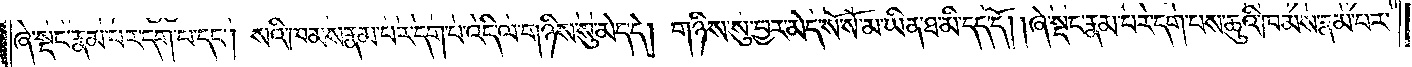ཞེ་སྡང་རྣམ་པར་དག་པ་དང༌། སའི་ཁམས་རྣམ་པར་དག་པ་འདི་ལ་གཉིས་སུ་མེད་དེ། གཉིས་སུ་བྱར་མེད་སོ་སོ་མ་ཡིན་ཐ་མི་དད་དོ། ། ཞེ་སྡང་རྣམ་པར་དག་པས་ཆུའི་ཁམས་རྣམ་པར་
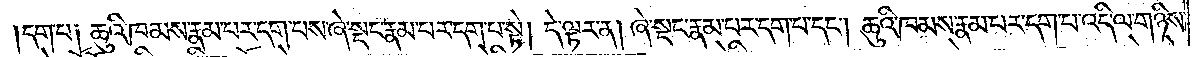དག་པ༑ ཆུའི་ཁམས་རྣམ་པར་དག་པས་ཞེ་སྡང་རྣམ་པར་དག་པ་སྟེ། དེ་ལྟར་ན། ཞེ་སྡང་རྣམ་པར་དག་པ་དང༌། ཆུའི་ཁམས་རྣམ་པར་དག་པ་འདི་ལ་གཉིས་
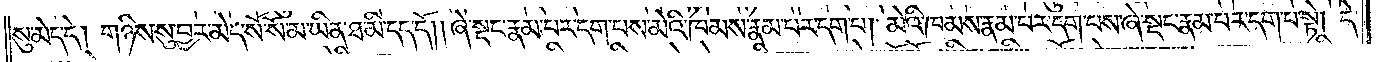སུ་མེད་དེ། གཉིས་སུ་བྱར་མེད་སོ་སོ་མ་ཡིན་ཐ་མི་དད་དོ། །ཞེ་སྡང་རྣམ་པར་དག་པས་མེའི་ཁམས་རྣམ་པར་དག་པ། མེའི་ཁམས་རྣམ་པར་དག་པས་ཞེ་སྡང་རྣམ་པར་དག་པ་སྟེ། དེ་
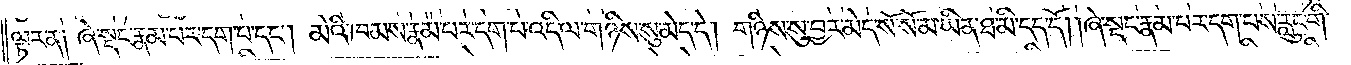ལྟར་ན། ཞེ་སྡང་རྣམ་པར་དག་པ་དང༌། མེའི་ཁམས་རྣམ་པར་དག་པ་འདི་ལ་གཉིས་སུ་མེད་དེ། གཉིས་སུ་བྱར་མེད་སོ་སོ་མ་ཡིན་ཐ་མི་དད་དོ། །ཞེ་སྡང་རྣམ་པར་དག་པས་རླུང་གི་
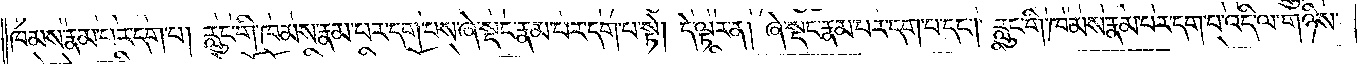ཁམས་རྣམ་པར་དག་པ། རླུང་གི་ཁམས་རྣམ་པར་དག་པས་ཞེ་སྡང་རྣམ་པར་དག་པས་ཏེ། དེ་ལྟར་ན། ཞེ་སྡང་རྣམ་པར་དག་པ་དང༌། རླུང་གི་ཁམས་རྣམ་པར་དག་པ་འདི་ལ་གཉིས་
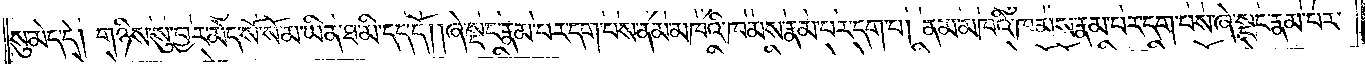སུ་མེད་དེ། གཉིས་སུ་བྱར་མེད་སོ་སོ་མ་ཡིན་ཐ་མི་དད་དོ། །ཞེ་སྡང་རྣམ་པར་དག་པས་ནམ་མཁའི་ཁམས་རྣམ་པར་དག་པ། ནམ་མཁའི་ཁམས་རྣམ་པར་དག་པས་ཞེ་སྡང་རྣམ་པར་
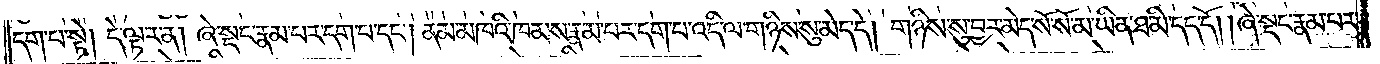དག་པ་སྟེ། དེ་ལྟར་ན། ཞེ་སྡང་རྣམ་པར་དག་པ་དང༌། ནམ་མཁའི་ཁམས་རྣམ་པར་དག་པ་འདི་ལ་གཉིས་སུ་མེད་དེ། གཉིས་སུ་བྱར་མེད་སོ་སོ་མ་ཡིན་ཐ་མི་དད་དོ། །ཞེ་སྡང་རྣམ་པར་
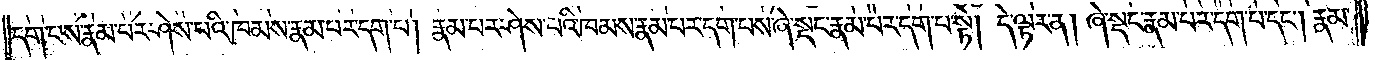དག་པས་རྣམ་པར་ཤེས་པའི་ཁམས་རྣམ་པར་དག་པ། རྣམ་པར་ཤེས་པའི་ཁམས་རྣམ་པར་དག་པས་ཞེ་སྡང་རྣམ་པར་དག་པ་སྟེ། དེ་ལྟར་ན། ཞེ་སྡང་རྣམ་པར་དག་པ་དང༌། རྣམ་
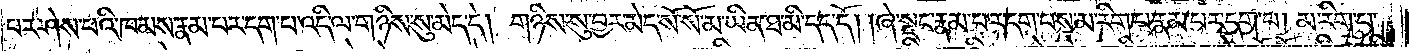པར་ཤེས་པའི་ཁམས་རྣམ་པར་དག་པ་འདི་ལ་གཉིས་སུ་མེད་དེ། གཉིས་སུ་བྱར་མེད་སོ་སོ་མ་ཡིན་ཐ་མི་དད་དོ། །ཞེ་སྡང་རྣམ་པར་དག་པས་མ་རིག་པ་རྣམ་པར་དག་པ། མ་རིག་པ་
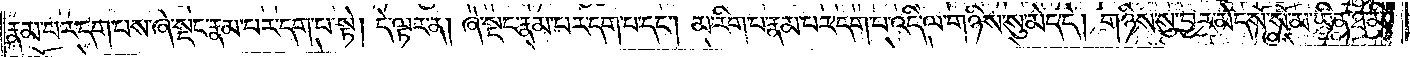རྣམ་པར་དག་པས་ཞེ་སྡང་རྣམ་པར་དག་པ་སྟེ། དེ་ལྟར་ན། ཞེ་སྡང་རྣམ་པར་དག་པ་དང༌། མ་རིག་པ་རྣམ་པར་དག་པ་འདི་ལ་གཉིས་སུ་མེད་དེ། གཉིས་སུ་བྱར་མེད་སོ་སོ་མ་ཡིན་ཐ་མི་
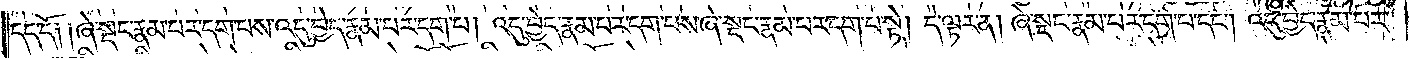དད་དོ༑ ༑ཞེ་སྡང་རྣམ་པར་དག་པས་འདུ་བྱེད་རྣམ་པར་དག་པ། འདུ་བྱེད་རྣམ་པར་དག་པས་ཞེ་སྡང་རྣམ་པར་དག་པ་སྟེ། དེ་ལྟར་ན། ཞེ་སྡང་རྣམ་པར་དག་པ་དང༌། འདུ་བྱེད་རྣམ་པར་
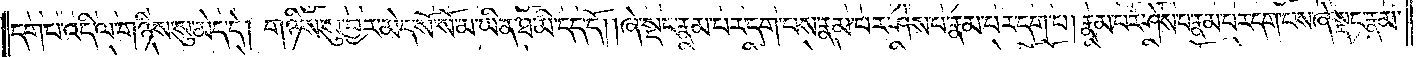དག་པ་འདི་ལ་གཉིས་སུ་མེད་དེ། གཉིས་སུ་བྱར་མེད་སོ་སོ་མ་ཡིན་ཐ་མི་དད་དོ། །ཞེ་སྡང་རྣམ་པར་དག་པས་རྣམ་པར་ཤེས་པ་རྣམ་པར་དག་པ། རྣམ་པར་ཤེས་པ་རྣམ་པར་དག་པས་ཞེ་སྡང་རྣམ་
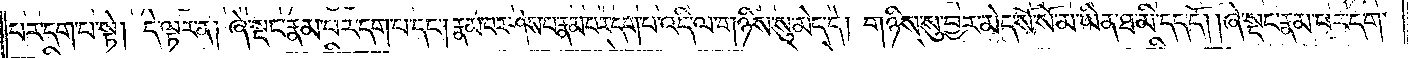པར་དག་པ་སྟེ། དེ་ལྟར་ན། ཞེ་སྡང་རྣམ་པར་དག་པ་དང༌། རྣམ་པར་ཤེས་པ་རྣམ་པར་དག་པ་འདི་ལ་གཉིས་སུ་མེད་དེ། གཉིས་སུ་བྱར་མེད་སོ་སོ་མ་ཡིན་ཐ་མི་དད་དོ། །ཞེ་སྡང་རྣམ་པར་དག་
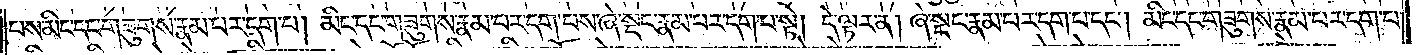པས་མིང་དང་གཟུགས་རྣམ་པར་དག་པ། མིང་དང་གཟུགས་རྣམ་པར་དག་པས་ཞེ་སྡང་རྣམ་པར་དག་པ་སྟེ། དེ་ལྟར་ན། ཞེ་སྡང་རྣམ་པར་དག་པ་དང༌། མིང་དང་གཟུགས་རྣམ་པར་དག་པ་
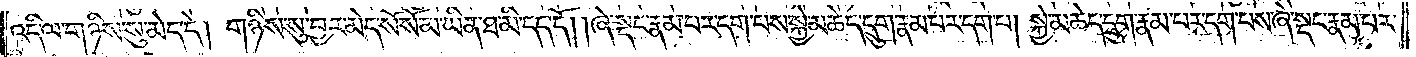འདི་ལ་གཉིས་སུ་མེད་དེ། གཉིས་སུ་བྱར་མེད་སོ་སོ་མ་ཡིན་ཐ་མི་དད་དོ། །ཞེ་སྡང་རྣམ་པར་དག་པས་སྐྱེ་མཆེད་དྲུག་རྣམ་པར་དག་པ། སྐྱེ་མཆེད་དྲུག་རྣམ་པར་དག་པས་ཞེ་སྡང་རྣམ་པར་
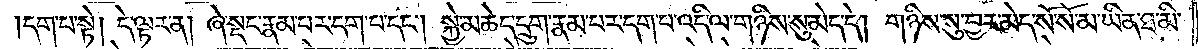དག་པ་སྟེ། དེ་ལྟར་ན། ཞེ་སྡང་རྣམ་པར་དག་པ་དང༌། སྐྱེ་མཆེད་དྲུག་རྣམ་པར་དག་པ་འདི་ལ་གཉིས་སུ་མེད་དེ། གཉིས་སུ་བྱར་མེད་སོ་སོ་མ་ཡིན་ཐ་མི་
